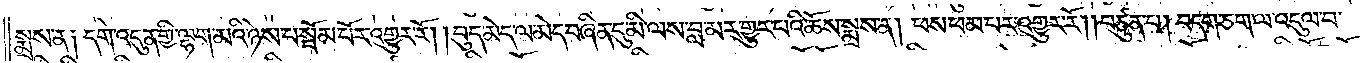སྨྲས་ན། དགེ་འདུན་གྱི་ལྷག་མའི་ཉེས་པ་སྦོམ་པོར་འགྱུར་རོ། །བུད་མེད་ལ་མེད་བཞིན་དུ་མི་ལས་བླ་མར་གྱུར་པའི་ཆོས་སྨྲས་ན། ཕས་ཕམ་པར་འགྱུར་རོ། །བཙུན་པ། བདག་ཅག་ལ་འདུལ་བ་
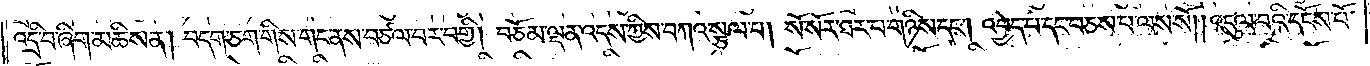འདྲི་བ་ཞིག་མཆིས་ན། བདག་ཅག་གིས་གང་ནས་བཙལ་བར་བགྱི། བཅོམ་ལྡན་འདས་ཀྱིས་བཀའ་སྩལ་པ། སོ་སོར་ཐར་པ་གཉིས་དང༌། འབྱེད་པ་དང་བཅས་པ་ལས་སོ། །འདུལ་བའི་དངོས་པོ་
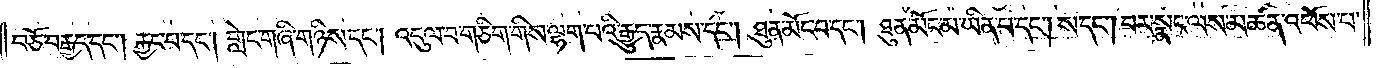བཅོ་བརྒྱད་དང༌། རྐྱང་པ་དང༌། གླེང་གཞི་གཉིས་དང༌། འདུལ་བ་གཅིག་གིས་ལྷག་པའི་རྒྱུད་རྣམས་དང༌། ཐུན་མོང་བ་དང༌། ཐུན་མོང་མ་ཡིན་པ་དང༌། ས་དང༌། བར་སྣང་ལས་མཚན་འཕོས་པ་
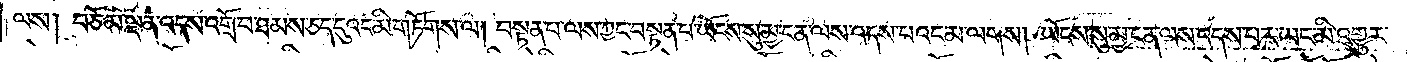ལས། བཅོམ་ལྡན་འདས་འགྲོ་བ་ཐམས་ཅད་དུའང་མི་གཏོགས་ལ། བསྟན་པ་ལས་ཀྱང་བསྟན་པ་ཡོངས་སུ་མྱ་ངན་ལས་འདས་པའང་མ་ལགས། ཡོངས་སུ་མྱ་ངན་ལས་འདས་པར་ཡང་མི་འགྱུར་
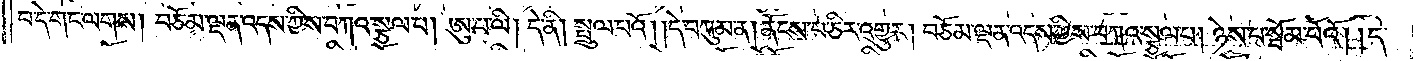བ་དེ་གང་ལགས། བཅོམ་ལྡན་འདས་ཀྱིས་བཀའ་སྩལ་པ། ཨུ་པ་ལི། དེ་ནི། སྤྲུལ་པའོ། །དེ་བཀུམ་ན། ནོངས་པ་ཅིར་འགྱུར། བཅོམ་ལྡན་འདས་ཀྱིས་བཀའ་སྩལ་པ། ཉེས་པ་སྦོམ་པོའོ། །དེ་
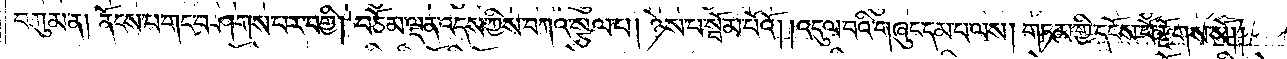བཀུམ་ན། ནོངས་པ་གང་བཤགས་པར་བགྱི། བཅོམ་ལྡན་འདས་ཀྱིས་བཀའ་སྩལ་པ། ཉེས་པ་སྦོམ་པོའོ། །འདུལ་བའི་གཞུང་དམ་པ་ལས། གཏམ་གྱི་དངོས་པོ་རྫོགས་སོ། །
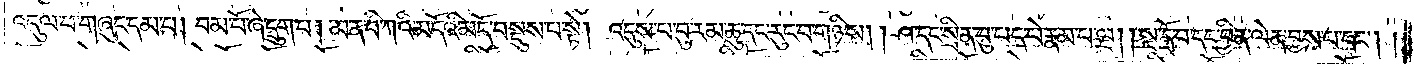འདུལ་བ་གཞུང་དམ་པ། བམ་པོ་ཞེ་དྲུག་པ། མ་ན་བི་ཀའི་མདོའི་མདོ་བསྡུས་པ་སྟེ། འདུས་པ་བུ་རམ་ཆུ་དང་རུང་བ་གཉིས། །ཤ་དང་སྲིན་བུ་པད་པེ་རྣམ་པ་ལྔ། །སྔ་དྲོ་བ་དང་བྱིན་ལེན་བྱས་པ་དང༌། །
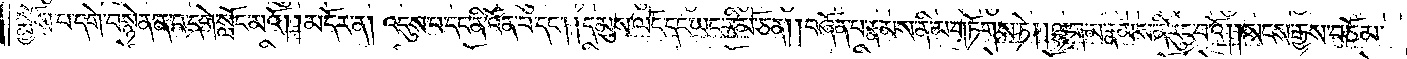སྨྱོས་པ་དགེ་བསྙེན་ན་བ་དགེ་སློང་མའོ། །མདོར་ན། འདུས་པ་དང་ནི་འོན་པ་དང༌། །དམུས་ལོང་དང་ཡང་རི་མོ་ཅན། །བཞོན་པ་རྣམས་ནི་མ་གཏོགས་ཏེ། །ལྷག་མ་རྣམས་ནི་རུང་བའོ། །སངས་རྒྱས་བཅོམ་
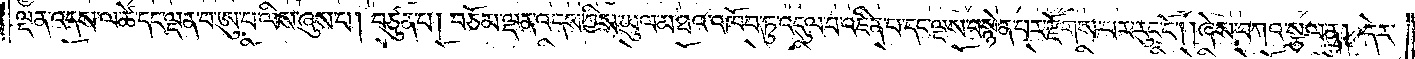ལྡན་འདས་ལ་ཚེ་དང་ལྡན་པ་ཨུ་པ་ལིས་ཞུས་པ། བཙུན་པ། བཅོམ་ལྡན་འདས་ཀྱིས་ཡུལ་མཐའ་འཁོབ་ཏུ་འདུལ་བ་འཛིན་པ་དང་ལྔས་བསྙེན་པར་རྫོགས་པར་རུང་ངོ༌། །ཞེས་བཀའ་སྩལ་ན། དེར་
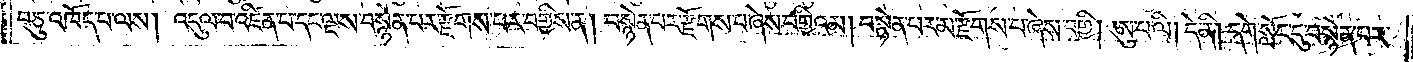བཅུ་འཁོད་པ་ལས། འདུལ་བ་འཛིན་པ་དང་ལྔས་བསྙེན་པར་རྫོགས་པར་བགྱིས་ན། བསྙེན་པར་རྫོགས་པ་ཞེས་བགྱིའམ། བསྙེན་པར་མ་རྫོགས་པ་ཞེས་བགྱི། ཨུ་པ་ལི། དེ་ནི། དགེ་སློང་དུ་བསྙེན་པར་
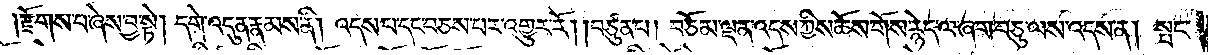རྫོགས་པ་ཞེས་བྱ་སྟེ། དགེ་འདུན་རྣམས་ནི། འདས་པ་དང་བཅས་པར་འགྱུར་རོ། །བཙུན་པ། བཅོམ་ལྡན་འདས་ཀྱིས་ཆོས་གོས་རྙེད་ལ་ཞག་བཅུ་ལས་འདས་ན། སྤང་
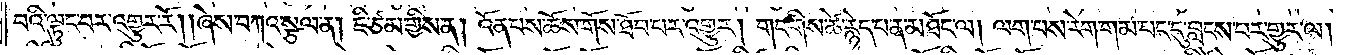བའི་ལྟུང་བར་འགྱུར་རོ། །ཞེས་བཀའ་སྩལ་ན། ཇི་ཙམ་གྱིས་ན། འོན་བས་ཆོས་གོས་ཐོབ་པར་འགྱུར། གང་གིས་ཚེ་རྙེད་པ་ན་མཐོང་ལ། ལག་པས་རེག་གམ་པང་དུ་བླངས་པར་གྱུར་ལ།
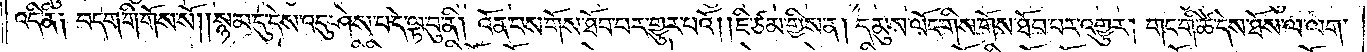འདི་ནི། བདག་གི་གོས་སོ། །སྙམ་དུ་དེས་འདུ་ཤེས་པ་དེ་ལྟ་བུ་ནི། འོན་བས་གོས་ཐོབ་པར་གྱུར་པའོ། །ཇི་ཙམ་གྱིས་ན། དམུས་ལོང་གིས་གོས་ཐོབ་པར་འགྱུར། གང་གི་ཚེ་དེས་ཐོས་ལ་ལག་
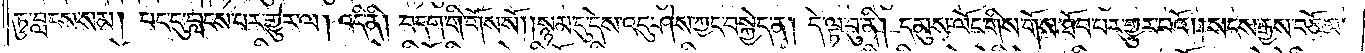ཏུ་བླངས་སམ། པང་དུ་བླངས་པར་གྱུར་ལ། འདི་ནི། བདག་གི་གོས་སོ། །སྙམ་དུ་དེས་འདུ་ཤེས་ཀྱང་བསྐྱེད་ན། དེ་ལྟ་བུ་ནི། དམུས་ལོང་གིས་གོས་ཐོབ་པར་གྱུར་པའོ། །སངས་རྒྱས་བཅོམ་
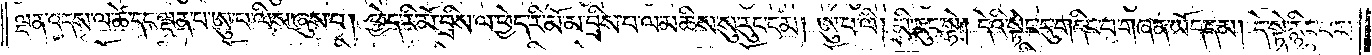ལྡན་འདས་ལ་ཚེ་དང་ལྡན་པ་ཨུ་པ་ལིས་ཞུས་པ། ཕྱེད་རི་མོ་བྲིས་ལ་ཕྱེད་རི་མོ་མ་བྲིས་པ་ལ་མཆིས་སུ་རུང་ངམ། ཨུ་པ་ལི། མི་རུང་སྟེ། དེའི་སྟེང་དུ་གདིང་བ་གཞན་ཡོད་དམ། དེ་སྟེ་རྙིང་པར་
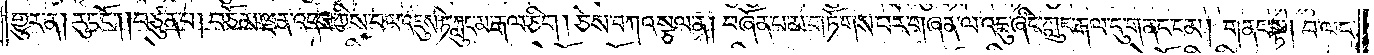གྱུར་ན། རུང་ངོ༌། །བཙུན་པ། བཅོམ་ལྡན་འདས་ཀྱིས་བལ་འཇུས་ཏེ་ཀླུང་མ་རྒལ་ཅིག །ཅེས་བཀའ་སྩལ་ན། བཞོན་པ་མ་གཏོགས་པར་གཞན་ལ་འཇུ་ཞིང་ཀླུང་རྒལ་དུ་གནང་ངམ། གནང་སྟེ། བ་ལང་
